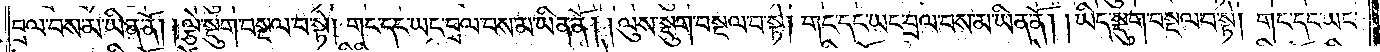བྲལ་བས་མ་ཡིན་ནོ། །ལྕེ་སྡུག་བསྔལ་བ་སྟེ། གང་དང་ཡང་བྲལ་བས་མ་ཡིན་ནོ། །ལུས་སྡུག་བསྔལ་བ་སྟེ། གང་དང་ཡང་བྲལ་བས་མ་ཡིན་ནོ། །ཡིད་སྡུག་བསྔལ་བ་སྟེ། གང་དང་ཡང་
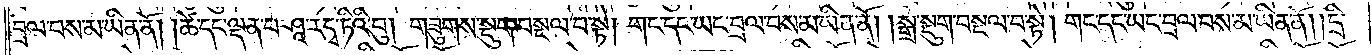བྲལ་བས་མ་ཡིན་ནོ། །ཚེ་དང་ལྡན་པ་ཤཱ་ར་དྭ་ཏིའི་བུ། གཟུགས་སྡུག་བསྔལ་བ་སྟེ། གང་དང་ཡང་བྲལ་བས་མ་ཡིན་ནོ། །སྒྲ་སྡུག་བསྔལ་བ་སྟེ། གང་དང་ཡང་བྲལ་བས་མ་ཡིན་ནོ། །དྲི་
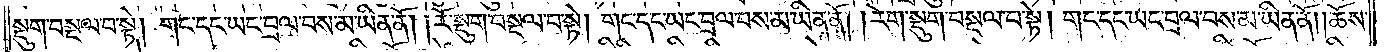སྡུག་བསྔལ་བ་སྟེ། གང་དང་ཡང་བྲལ་བས་མ་ཡིན་ནོ། །རོ་སྡུག་བསྔལ་བ་སྟེ། གང་དང་ཡང་བྲལ་བས་མ་ཡིན་ནོ། །རེག་སྡུག་བསྔལ་བ་སྟེ། གང་དང་ཡང་བྲལ་བས་མ་ཡིན་ནོ། །ཆོས་
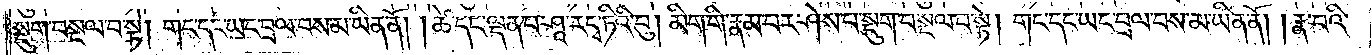སྡུག་བསྔལ་བ་སྟེ། གང་དང་ཡང་བྲལ་བས་མ་ཡིན་ནོ། །ཚེ་དང་ལྡན་པ་ཤཱ་ར་དྭ་ཏིའི་བུ། མིག་གི་རྣམ་པར་ཤེས་པ་སྡུག་བསྔལ་བ་སྟེ༑ གང་དང་ཡང་བྲལ་བས་མ་ཡིན་ནོ། །རྣ་བའི་
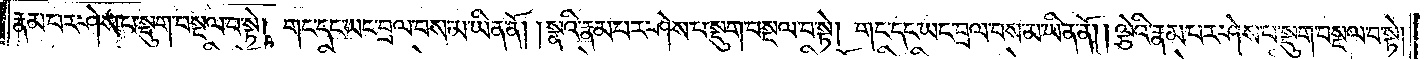རྣམ་པར་ཤེས་པ་སྡུག་བསྔལ་བ་སྟེ། གང་དང་ཡང་བྲལ་བས་མ་ཡིན་ནོ། །སྣའི་རྣམ་པར་ཤེས་པ་སྡུག་བསྔལ་བ་སྟེ། གང་དང་ཡང་བྲལ་བས་མ་ཡིན་ནོ། །ལྕེའི་རྣམ་པར་ཤེས་པ་སྡུག་བསྔལ་བ་སྟེ།
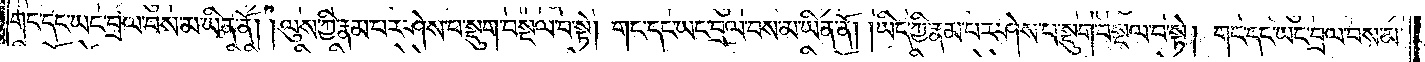གང་དང་ཡང་བྲལ་བས་མ་ཡིན་ནོ། །ལུས་ཀྱི་རྣམ་པར་ཤེས་པ་སྡུག་བསྔལ་བ་སྟེ། གང་དང་ཡང་བྲལ་བས་མ་ཡིན་ནོ། །ཡིད་ཀྱི་རྣམ་པར་ཤེས་པ་སྡུག་བསྔལ་བ་སྟེ། གང་དང་ཡང་བྲལ་བས་མ་
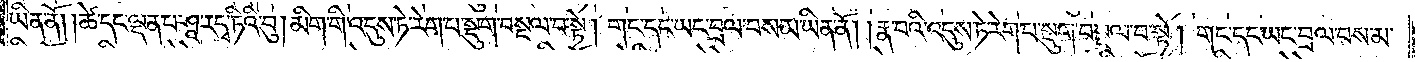ཡིན་ནོ། །ཚེ་དང་ལྡན་པ་ཤཱ་ར་དྭ་ཏིའི་བུ། མིག་གི་འདུས་ཏེ་རེག་པ་སྡུག་བསྔལ་བ་སྟེ། གང་དང་ཡང་བྲལ་བས་མ་ཡིན་ནོ། །རྣ་བའི་འདུས་ཏེ་རེག་པ་སྡུག་བསྔལ་བ་སྟེ། གང་དང་ཡང་བྲལ་བས་མ་
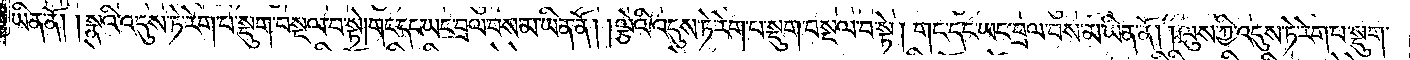ཡིན་ནོ། །སྣའི་འདུས་ཏེ་རེག་པ་སྡུག་བསྔལ་བ་སྟེ། གང་དང་ཡང་བྲལ་བས་མ་ཡིན་ནོ། །ལྕེའི་འདུས་ཏེ་རེག་པ་སྡུག་བསྔལ་བ་སྟེ། གང་དང་ཡང་བྲལ་བས་མ་ཡིན་ནོ། །ལུས་ཀྱི་འདུས་ཏེ་རེག་པ་སྡུག་
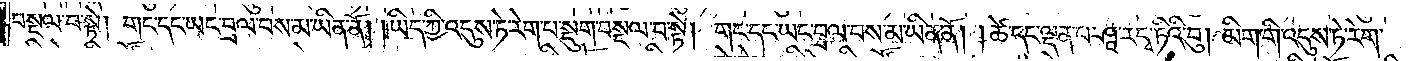བསྔལ་བ་སྟེ། གང་དང་ཡང་བྲལ་བས་མ་ཡིན་ནོ། །ཡིད་ཀྱི་འདུས་ཏེ་རེག་པ་སྡུག་བསྔལ་བ་སྟེ། གང་དང་ཡང་བྲལ་བས་མ་ཡིན་ནོ། །ཚེ་དང་ལྡན་པ་ཤཱ་ར་དྭ་ཏིའི་བུ། མིག་གི་འདུས་ཏེ་རེག་
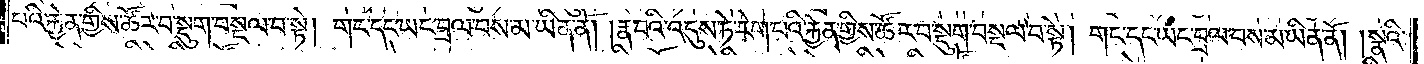པའི་རྐྱེན་གྱིས་ཚོར་བ་སྡུག་བསྔལ་བ་སྟེ། གང་དང་ཡང་བྲལ་བས་མ་ཡིན་ནོ། །རྣ་བའི་འདུས་ཏེ་རེག་པའི་རྐྱེན་གྱིས་ཚོར་བ་སྡུག་བསྔལ་བ་སྟེ། གང་དང་ཡང་བྲལ་བས་མ་ཡིན་ནོ། །སྣའི་
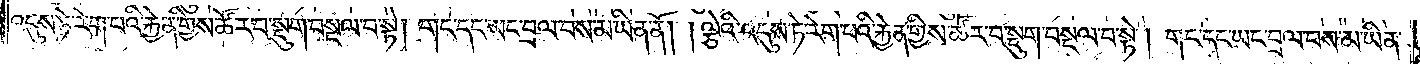འདུས་ཏེ་རེག་པའི་རྐྱེན་གྱིས་ཚོར་བ་སྡུག་བསྔལ་བ་སྟེ། གང་དང་ཡང་བྲལ་བས་མ་ཡིན་ནོ། །ལྕེའི་འདུས་ཏེ་རེག་པའི་རྐྱེན་གྱིས་ཚོར་བ་སྡུག་བསྔལ་བ་སྟེ། གང་དང་ཡང་བྲལ་བས་མ་ཡིན་
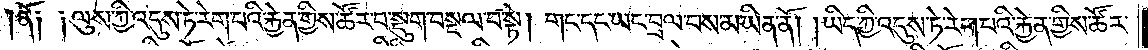ན༑ ༑ལུས་ཀྱི་འདུས་ཏེ་རེག་པའི་རྐྱེན་གྱིས་ཚོར་བ་སྡུག་བསྔལ་བ་སྟེ། གང་དང་ཡང་བྲལ་བས་མ་ཡིན་ནོ། །ཡིད་ཀྱི་འདུས་ཏེ་རེག་པའི་རྐྱེན་གྱིས་ཚོར་
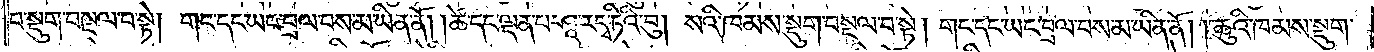བ་སྡུག་བསྔལ་བ་སྟེ། གང་དང་ཡང་བྲལ་བས་མ་ཡིན་ནོ། །ཚེ་དང་ལྡན་པ་ཤཱ་ར་དྭ་ཏིའི་བུ། སའི་ཁམས་སྡུག་བསྔལ་བ་སྟེ། གང་དང་ཡང་བྲལ་བས་མ་ཡིན་ནོ། །ཆུའི་ཁམས་སྡུག་
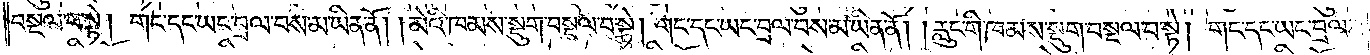བསྔལ་བ་སྟེ། གང་དང་ཡང་བྲལ་བས་མ་ཡིན་ནོ། །མེའི་ཁམས་སྡུག་བསྔལ་བ་སྟེ། གང་དང་ཡང་བྲལ་བས་མ་ཡིན་ནོ། །རླུང་གི་ཁམས་སྡུག་བསྔལ་བ་སྟེ། གང་དང་ཡང་བྲལ་
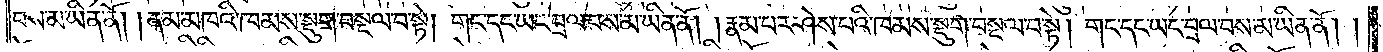བས་མ་ཡིན་ནོ། །ནམ་མཁའི་ཁམས་སྡུག་བསྔལ་བ་སྟེ། གང་དང་ཡང་བྲལ་བས་མ་ཡིན་ནོ། །རྣམ་པར་ཤེས་པའི་ཁམས་སྡུག་བསྔལ་བ་སྟེ། གང་དང་ཡང་བྲལ་བས་མ་ཡིན་ནོ། །
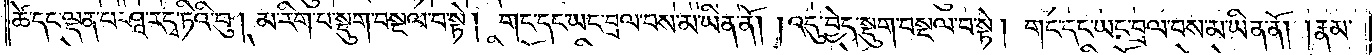ཚེ་དང་ལྡན་པ་ཤཱ་ར་དྭ་ཏིའི་བུ། མ་རིག་པ་སྡུག་བསྔལ་བ་སྟེ། གང་དང་ཡང་བྲལ་བས་མ་ཡིན་ནོ། །འདུ་བྱེད་སྡུག་བསྔལ་བ་སྟེ། གང་དང་ཡང་བྲལ་བསམ་ཡིན་ནོ། །རྣམ་
